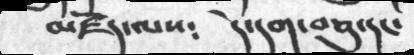མཛོད་ལས༴    དེ་དག་བཅུ་དང་
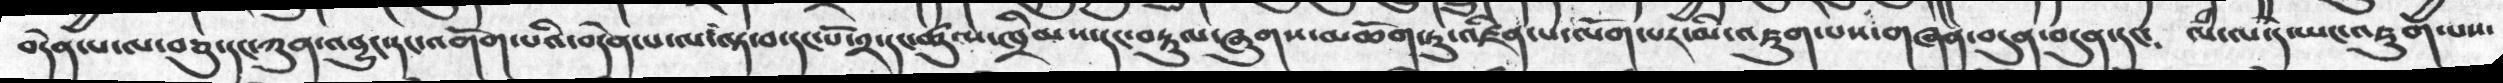བདེན་པ་ལ་བཅུ་དང་ཀུན་འབྱུང་དང་འགོག་པའི་བདེན་པ་ལ་ལྟ་བ་དང་པོ་༢་དང་ཚུལ་ཁྲིམས་དང་བརྟུལ་ཞུགས་མཆོག་ཏུ་འཛིན་པ་ལོག་པར་མི་འཇུག་པས་གཞན་བདུན་བདུན་དང༴   ལཾ་ལ་དེ་ཡང་འཇུག་པས
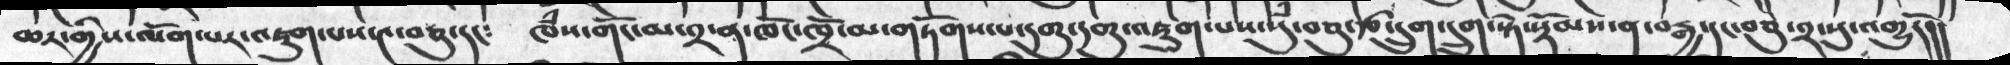ཆར་གྱིས་ལོག་པར་འཇུག་པས་༤་བཅུ་དང༴    ཁཾས་གོང་མ་༢་ན་ཁོང་ཁྲོ་མ་གཏོགས་པ་དགུ་་དགུ་འཇུག་པས་སུཾ་བཅུ་རྩ་དྲུག་སྟེ་སྡོམས་ན་བརྒྱ་དང་བཅུ་༢་སུ་འགྱུརོ།།
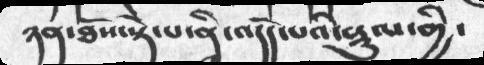ཉན་ཐོས་སྟེ་པ་ནི་འདོད་པའི་ཤུལ་གྱི་
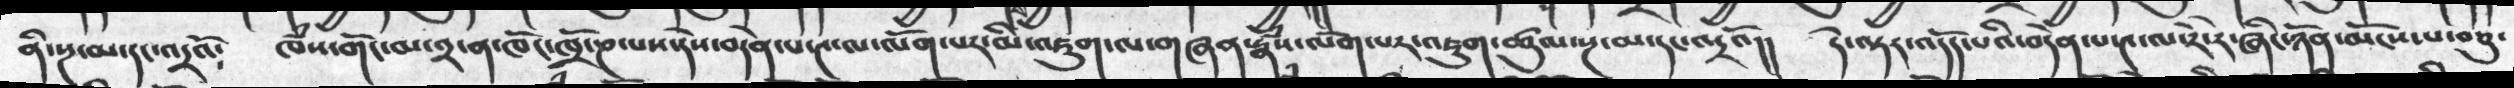ནི་སྔ་མ་དང་འདྲའོ༴    ཁཾས་གོང་མ་༢་ན་ཁོང་ཁྲོ་ཎ་པས་དེས་བདེན་པ་༤་ལ་ལོག་པར་མི་འཇུག་ལ་གཞན་རྣཾས་ལོག་པར་འཇུག་ཚུལ་སྔ་མ་དང་འདྲའོ།།    དེ་ལྟར་འདོད་པའི་བདེན་པ་༤་ལ་རེ་རེ་ཞིང་ཉོན་མོངས་པ་བཅུ་
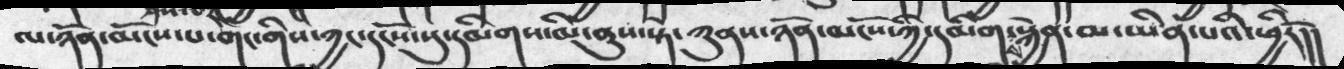ལ་ཉོན་མོངས་པ་གང་གིས་ཀྱང་དངོས་སུ་དམིགས་མི་ནུས་སྟེ་ཀུནས་ཉོན་མོངས་ཀྱི་དམིགས་སྐྱེན་མ་ཡིན་པའི་ཕྱིརོ།།
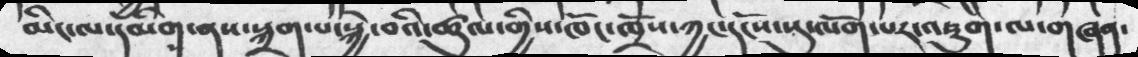མིང་ལ་དམིག་ནས་སྐྲག་པ་སྐྱེ་བའི་ཚུལ་གྱིས་ཁོང་ཁྲོས་ཀྱང་དངོས་སུ་ལོག་པར་འཇུག་ལ་གཞན་
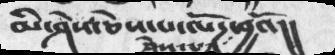མི་ཤེས་ཅེས་པ་ལོཌ་ཤེས་པར་བྱའོ།།
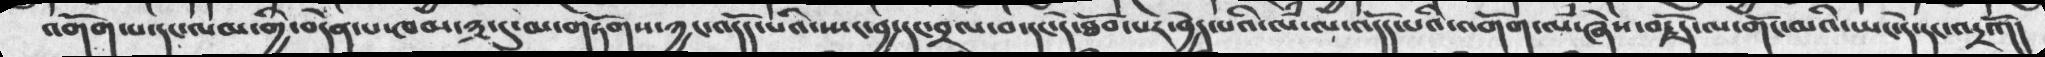འགོག་པ་དང་ལམ་གྱི་བདེན་པ་ཁམ་༣་དུ་མ་གཏོགས་ཀྱང་འདོད་པའི་སྤང་བྱ་དང་བྲལ་བ་དང་དེ་ཐོབ་པར་བྱེད་པའི་ལཾ་ལ་འདོད་པའི་འགོག་ལཾ་ཞེས་བརྗོད་ལ་གོང་མའི་ཡང་དེ་དང་འདྲའོ།།
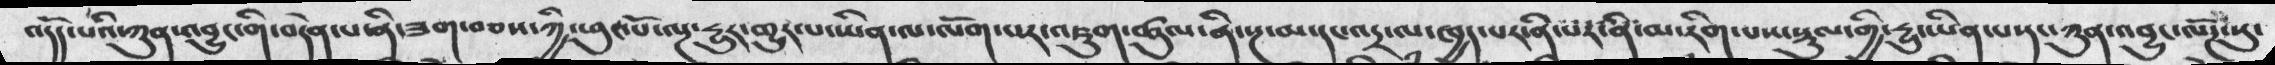འདོད་པའི་ཀུན་འབྱུང་གི་བདེན་པ་ནི་ཟག་བཅས་ཀྱི་ཕུང་པོ་ལྔ་རྱུར་མྱུར་པ་ཡིན་ལ་ལོག་པར་འཇུག་ཚུལ་ནི་སྔ་མ་དང་འདྲ་ལ་ཁྱད་པར་ནི་པར་ནི་མ་རིག་པས་སྡུལ་གྱི་རྱུ་ཡིན་པ་དང་ཀུན་འབྱུང་ལོཌ་སུ་
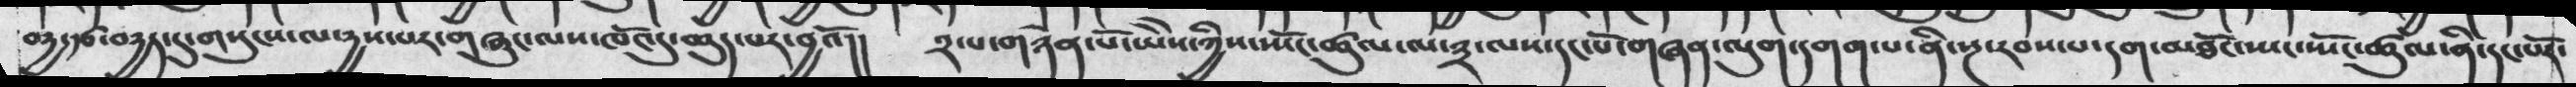བདྱ་རྩ་བདྱད་དུ་གསུངས་ལ་དྱས་པར་གཞུང་ལས་ཁོང་དུ་ཆུད་པར་བྱའོ།།    ༢་པ་གཉེན་པོ་ཡེེས་ཀྱིས་ཡོང་ཚུལ་ལ་༣་ལས་དང་པོ་གཞན་ལུག་དགག་པ་ནི་སྔ་རབས་པ་དག་མཐོང་ཡང་ཡོང་ཚུལ་ནི་དང་པོར་
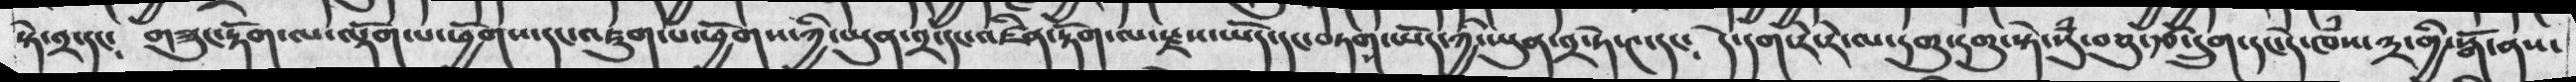སྟེ་༢་དང༴    གཟུང་རྟོག་ལ་ལྡོག་པ་ཕྱོགས་དང་འཇུག་པ་ཕྱོགས་ཀྱི་ཡུན་༢་དང་འཛིན་རྟོག་ལ་རྫས་ཡོད་དང་བཏག་ཡོད་ཀྱི་ཡུན་༢་ཏེ་༤་དང༴   དེ་དག་རེ་རེ་ལ་དགུ་དགུ་སྟེ་སུཾ་བཅུ་རྩ་དྲུག་དང་དེ་ཁཾས་༣་གྱི་སྒོ་ནས་
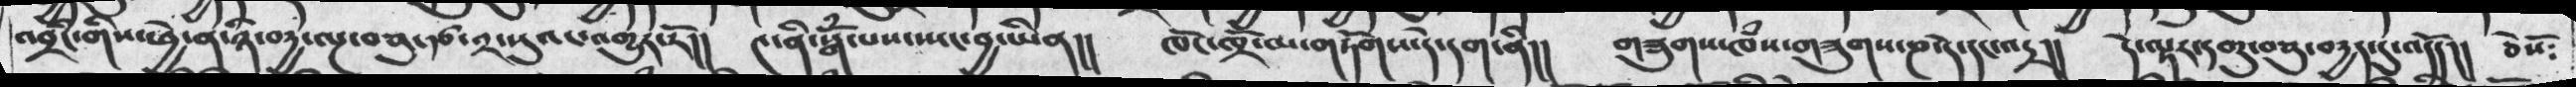འབྲིང་གིས་ཕྱེ་ན་ཉི་བདྱ་ལྔ་བཅུ་རྩ་༢་སུའང་འགྱུར་རོ།།   ༤་ནི་སྒོཾ་པས་ཡང་བྱ་ཡིན།།   ཁོང་ཁྲོ་མ་གཏོགས་དེ་དག་ནི།།   གཟུགས་ཁཾས་གཟུགས་ཎ་དེ་དང་འདྲ།།   དེ་ལྟར་དགུ་བཅུ་བདྱད་དུ་འདོད།།   ཅེསོ༴
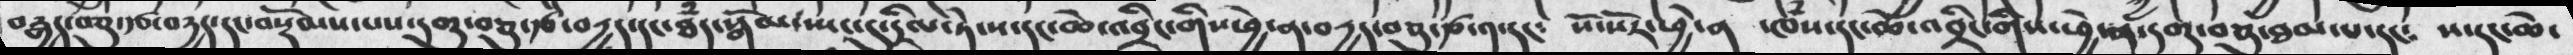བརྒྱད་བཅུ་རྩ་བདྱད་དང་བསྡོམས་པས་དགུ་བཅུ་རྩ་བདྱད་དང་ཐཾད་སྒོམ་སྤང་དུ་དྲིལ་ཏེ་ས་དང་ཆེ་འབྲིང་གིས་ཕྱེ་ན་བདྱད་བཅུ་རྩ་༡་རང༴ སོ་སོར་ཕྱེ་ན ་ཁཾས་དང་ཆེ་འབྲིང་གིས་ཕྱེ་ན་དགུ་བཅུ་ཐམ་པ་དང༴  ས་རང་ཆེ་
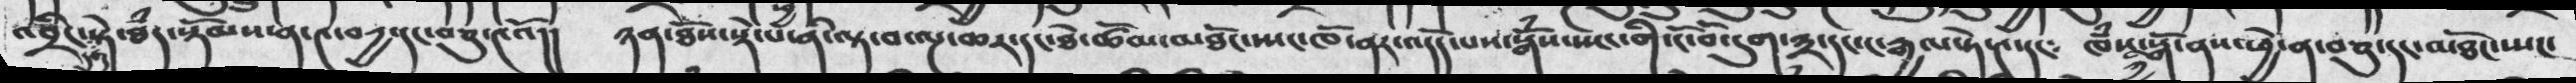འབྲིང་དགུ་སྟེ་ཐཾད་སྟོམས་ན་༤་བདྱ་དང་བཅུ་༤འོ།།  ཉན་ཐོས་སྡེ་པ་ནི་ལྟ་བ་ལྔ་ཆར་དང་ཐེ་ཚོམ་མཐོང་སྤང་ཁོ་ནར་འདོད་པས་སྒོཾས་སྤང་གི་ངོ་བོ་དུག་༣་དང་ང་རྒྱལ་ཏེ་༤་དང༴   ཁཾས་ཀྱི་སྒོ་ནས་ཕྱེ་ན་བཅུ་དང་མཐོང་སྤང་
